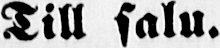Till salu.
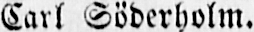Carl Söderholm.
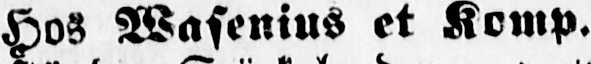Hos Wasenius et Komp.
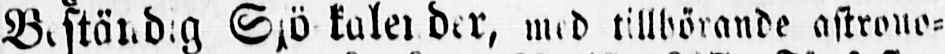Beständig Sjö kalender, med tillhörande astrono-
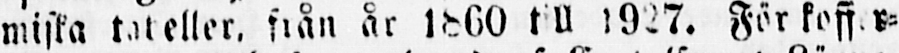miska tabeller, från år 1860 till 1927. För koffer-
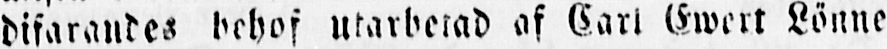difarandes behof utarbetad af Carl Ewert Lönne
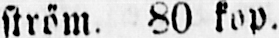ström. 80 kop.
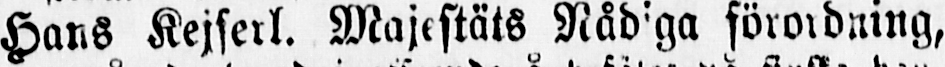Hans Kejserl. Majestäts Nådiga förordning,
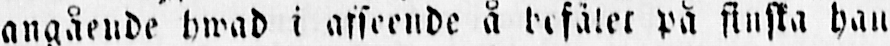angående hwad i afseende å befäler på finska han
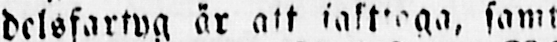delsfartyg är att iakttaga, samt
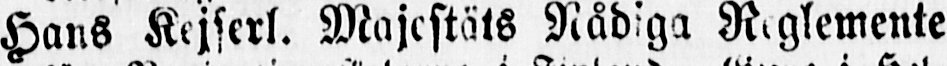Hans Kejserl. Majestäts Nådiga Reglemente
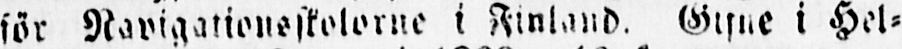för Navigationsskolorne i Finland. Gifne i Hel-
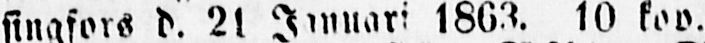singfors d. 2l Januari 1863. 10 kop.
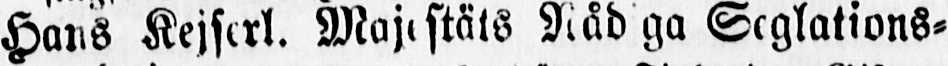Hans Kejserl. Majestäts Nåd ga Seglations-
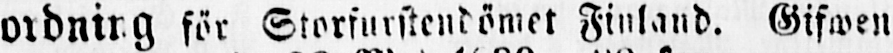ordning för Storfurstendömet Finland. Gifwen
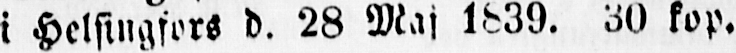i Helsingfors d. 28 Maj 1839. 30 kop.
